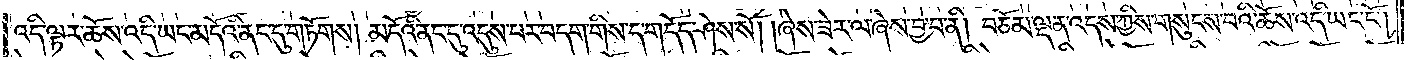འདི་ལྟར་ཆོས་འདི་ཡང་མདོའི་ནང་དུ་གཏོགས། མདོའི་ནང་དུ་འདུས་པར་བདག་གིས་ད་གདོད་ཤེས་སོ། །ཞེས་ཟེར་ལ་ཞེས་བྱ་བ་ནི། བཅོམ་ལྡན་འདས་ཀྱིས་གསུངས་པའི་ཆོས་འདི་ཡང་ངོ༌།
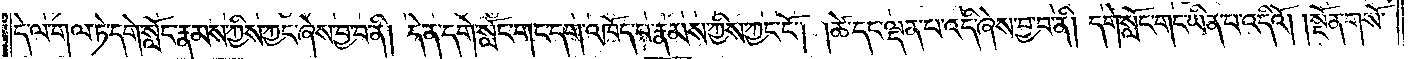དེ་ལ་གལ་ཏེ་དགེ་སློང་རྣམས་ཀྱིས་ཀྱང་ཞེས་བྱ་བ་ནི། དེ་ན་དགེ་སློང་གང་དག་འཁོད་པ་རྣམས་ཀྱིས་ཀྱང་ངོ༌། །ཚེ་དང་ལྡན་པ་འདི་ཞེས་བྱ་བ་ནི། དགེ་སློང་གང་ཡིན་པ་འདིའོ། །སྔོན་གསོ་
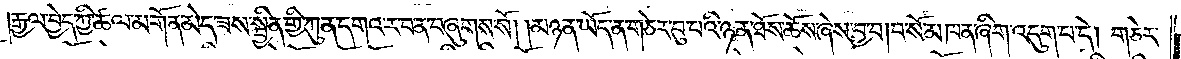རྒྱལ་བྱེད་ཀྱི་ཆལ་མགོན་མེད་ཟས་སྦྱིན་གྱི་ཀུན་དགའ་ར་བ་ན་བཞུགས་སོ། །མཉན་ཡོད་ན་གཅེར་བུ་བའི་ཉན་ཐོས་ཆོས་ཞེས་བྱ་བ།བ་སོ་མཁན་ཞིག་འདུག་པ་དེ། གཅེར་
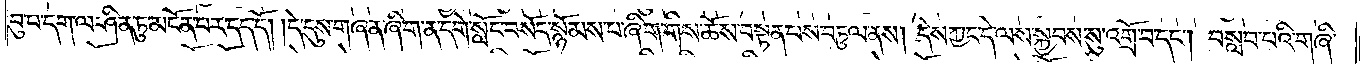བུ་པ་དག་ལ་ཤིན་ཏུ་མངོན་པར་དད་དོ། །དེ་དུས་གཞན་ཞིག་ན་དགེ་སློང་བསོད་སྙོམས་པ་ཞིག་གིས་ཆོས་བསྟན་པས་བཏུལ་ནས། དེས་ཀྱང་དེ་ལས་སྐྱབས་སུ་འགྲོ་བ་དང༌། བསླབ་པའི་གཞི་
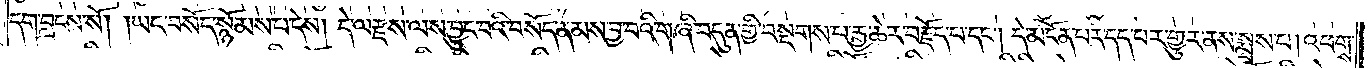དག་བླངས་སོ། །ཡང་བསོད་སྙོམས་པ་དེས། དེ་ལ་རྫས་ལས་བྱུང་བའི་བསོད་ནམས་བྱ་བའི་གཞི་བདུན་གྱི་བསྔགས་པ་རྒྱ་ཆེར་བརྗོད་པ་དང༌། དེ་མངོན་པར་དད་པར་གྱུར་ནས་སྨྲས་བ། འཕགས་
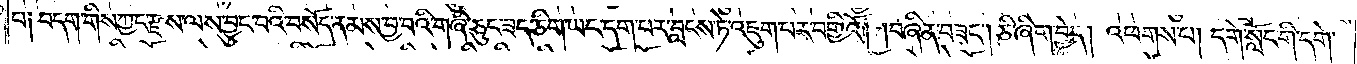བ༑ བདག་གིས་ཀྱང་རྫས་ལས་བྱུང་བའི་བསོད་ནམས་བྱ་བའི་གཞི་ཅུང་ཟད་ཅིག་ཡང་དག་པར་བླངས་ཏེ་འཇུག་པར་བགྱིའོ། །བཞིན་བཟང༌། ཅི་ཞིག་བྱེད། འཕགས་པ། དགེ་སློང་གི་དགེ་
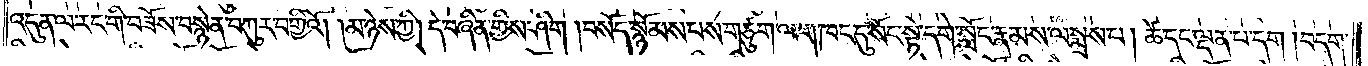འདུན་ལ་རང་གི་བཟོས་བསྙེན་བཀུར་བགྱིའོ། །མ་ཉེས་ཀྱི། དེ་བཞིན་གྱིས་ཤིག །བསོད་སྙོམས་པས་གཙུག་ལག་ཁང་དུ་སོང་སྟེ་དགེ་སློང་རྣམས་ལ་སྨྲས་པ། ཚེ་དང་ལྡན་པ་དག །བདག་
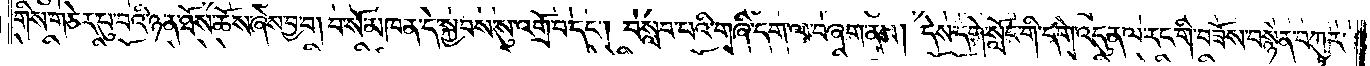གིས་གཅེར་བུ་བའི་ཉན་ཐོས་ཆོས་ཞེས་བྱ་བ། བ་སོ་མཁན་དེ་སྐྱབས་སུ་འགྲོ་བ་དང༌། བསླབ་པའི་གཞི་དག་ལ་བཞག་ནས། དེས་དགེ་སློང་གི་དགེ་འདུན་ལ་རང་གི་བཟོས་བསྙེན་བཀུར་
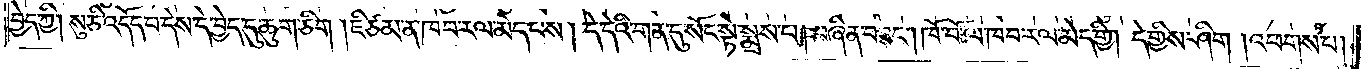བྱེད་ཀྱི། སུ་ཅི་འདོད་པ་དེས་དེ་བྱེད་དུ་ཆུག་ཅིག །ཇི་ཙམ་ན་ཁབ་རལ་མེད་པས། དེ་དེའི་གན་དུ་སོང་སྟེ་སྨྲས་པ། བཞིན་བཟང༌། ཁོ་བོ་ཁབ་རལ་མེད་ཀྱི། དེ་གྱིས་ཤིག །འཕགས་པ་
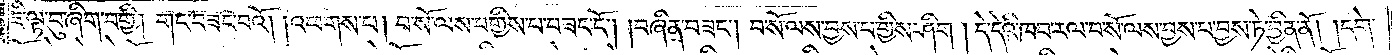ཇི་ལྟ་བུ་ཞིག་བགྱི། །གང་བཟང་བའོ། །འཕགས་པ། བ་སོ་ལས་བགྱིས་པ་བཟང་ངོ༌། །བཞིན་བཟང༌། བ་སོ་ལས་བྱས་བགྱིས་ཤིག །དེ་དེའི་ཁབ་རལ་བ་སོ་ལས་བྱས་པ་བྱས་ཏེ་བྱིན་ནོ། །དགེ་
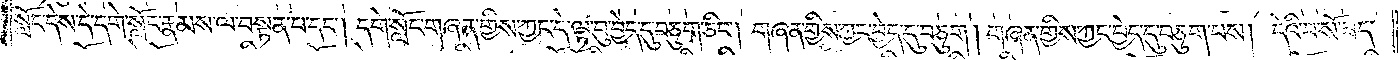སློང་དེས་དེ་དགེ་སློང་རྣམས་ལ་བསྟན་པ་དང༌། དགེ་སློང་གཞན་གྱིས་ཀྱང་དེ་ལྟ་བུ་བྱེད་དུ་བཅུག་ཅིང༌། གཞན་གྱིས་ཀྱང་བྱེད་དུ་བཅུག །གཞན་གྱིས་ཀྱང་བྱེད་དུ་བཅུག་པས། དེའི་བ་སོ་ཟད་
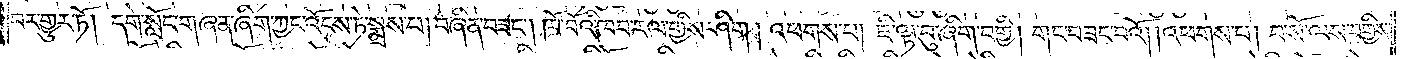པར་གྱུར་ཏོ། །དགེ་སློང་གཞན་ཞིག་ཀྱང་འོངས་ཏེ་སྨྲས་པ། བཞིན་བཟང༌། ཁོ་བོའི་ཁབ་རལ་གྱིས་ཤིག །འཕགས་པ། ཇི་ལྟ་བུ་ཞིག་བགྱི། གང་བཟང་བའོ། །འཕགས་པ། བ་སོ་ལས་བགྱིས་
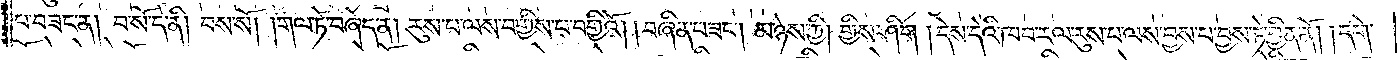པ་བཟང་ན། བ་སོ་དེ་ནི། བས་སོ། །གལ་ཏེ་བཞེད་ན། རུས་པ་ལས་བགྱིས་པ་བགྱིའོ། །བཞིན་བཟང༌། མ་ཉེས་ཀྱི། གྱིས་ཤིག །དེས་དེའི་ཁབ་རལ་རུས་པ་ལས་བྱས་པ་བྱས་ཏེ་བྱིན་ནོ། །དགེ་
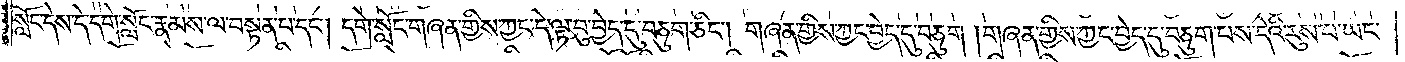སློང་དེས་དེ་དགེ་སློང་རྣམས་ལ་བསྟན་པ་དང༌། དགེ་སློང་གཞན་གྱིས་ཀྱང་དེ་ལྟ་བུ་བྱེད་དུ་བཅུག་ཅིང༌། གཞན་གྱིས་ཀྱང་བྱེད་དུ་བཅུག །གཞན་གྱིས་ཀྱང་བྱེད་དུ་བཅུག་པས་དེའི་རུས་པ་ཡང་
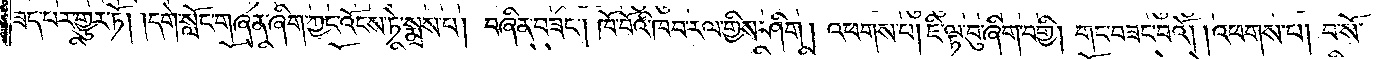ཟད་པར་གྱུར་ཏོ། །དགེ་སློང་གཞན་ཞིག་ཀྱང་འོངས་ཏེ་སྨྲས་པ། བཞིན་བཟང༌། ཁོ་བོའི་ཁབ་རལ་གྱིས་ཤིག །འཕགས་པ། ཇི་ལྟ་བུ་ཞིག་བགྱི། གང་བཟང་བའོ། །འཕགས་པ། བ་སོ་
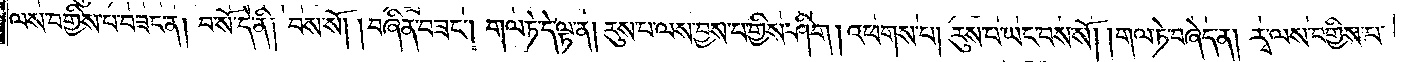ལས་བགྱིས་པ་བཟང་ན། བ་སོ་དེ་ནི། བས་སོ། བཞིན་བཟང༌། གལ་ཏེ་དེ་ལྟ་ན། རུས་པ་ལས་བྱས་པ་གྱིས་ཤིག །འཕགས་པ། རུས་པ་ཡང་བས་སོ། །གལ་ཏེ་བཞེད་ན། རྭ་ལས་བགྱིས་པ་
